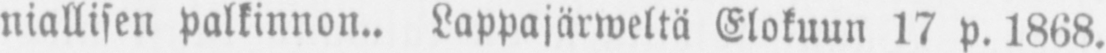niallisen palkinnon.. Lappajärweltä Elokuun 17 p. 1868.
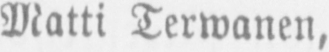Matti Terwanen,
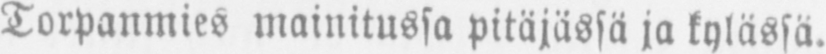Torpanmies mainitussa pitäjässä ja kylässä.
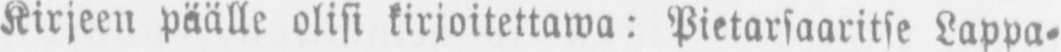Kirjeen päälle olisi kirjoitettawa: Pietarsaaritse Lappa-
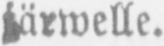järwelle.
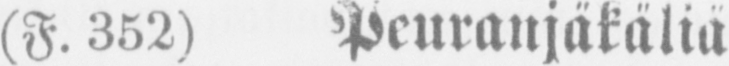(F. 352) Peuranjäkäliä
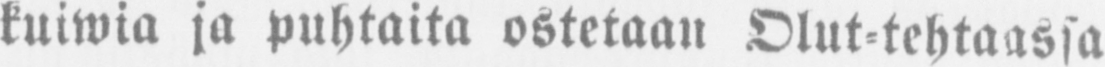kuiwia ja puhtaita ostetaan Olut-tehtaassa
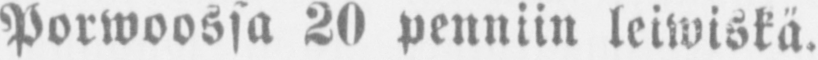Porwoossa 20 penniin leiwiskä.
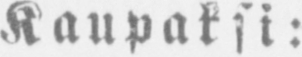Kaupaksi:
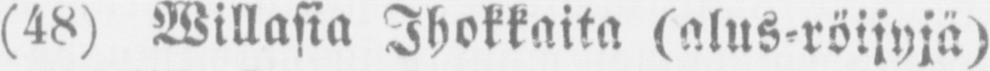(48) Willasia Ihokkaita (alus röijyjä)
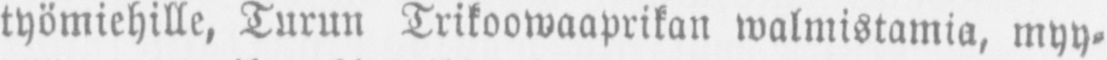työmiehille, Turun Trikoowaaprikan walmistamia, myy-
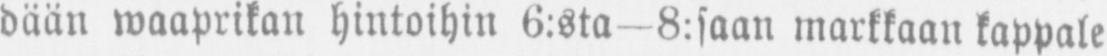dään waaprikan hintoihin 6:sta—8:saan markkaan kappale
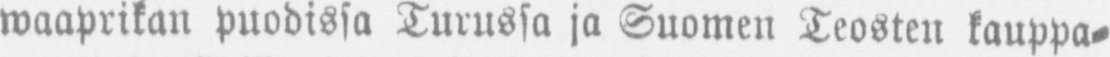waaprikan puodissa Turussa ja Suomen Teosten kauppa-
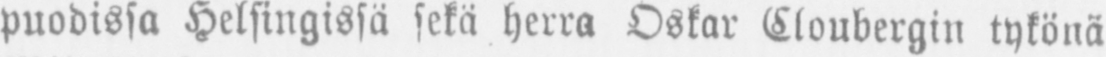puodissa Helsingissä sekä herra Oskar Eloubergin tykönä
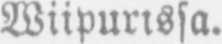Wiipurissa.
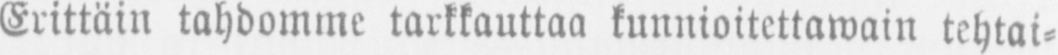Erittäin tahdomme tarkkauttaa kunnioitettawain tehtai-
